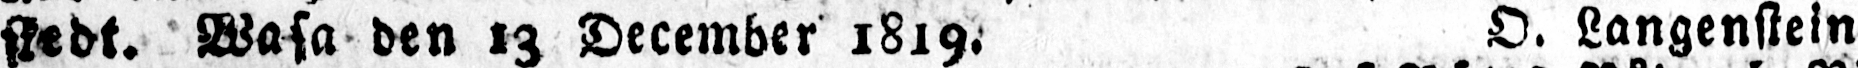skedt. Wasa den 13 December 1819. O. Langenstein
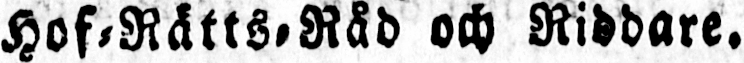Hof-Rätts-Råd och Riddare.
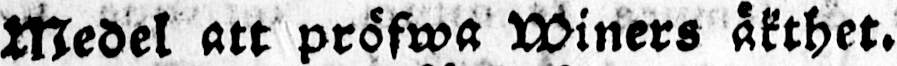Medel att pröfwa Winers äkthet.
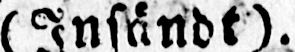(Insändt).
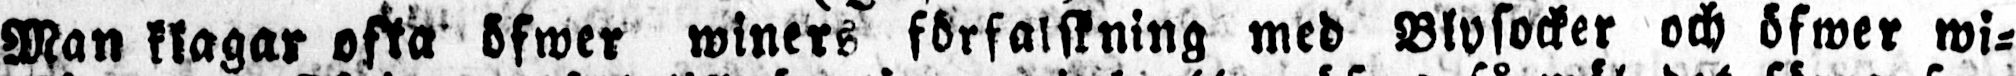Man klagar ofta öfwer winers förfalskning med Blysocker och öfwer wi-
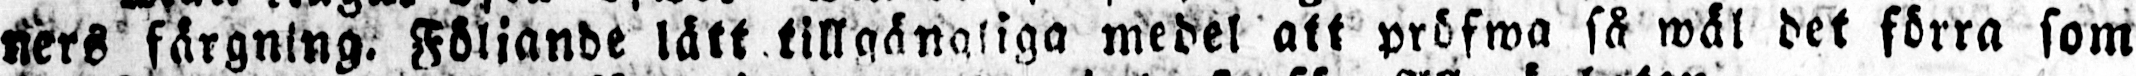ners färgning. Följande lätt tillgångliga medel att pröfwa så wäl det förra som
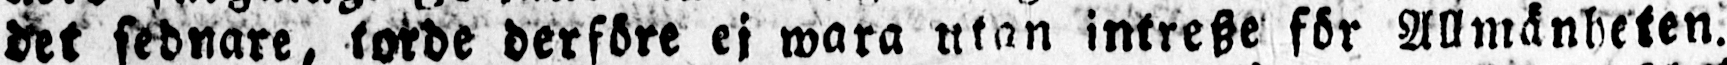det sednare, torde derföre ej wara utan intresze för Allmänheten.
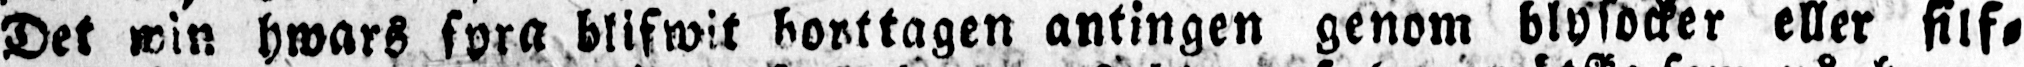Det win hwars syra blifwit borttagen antingen genom blysocker eller silf-
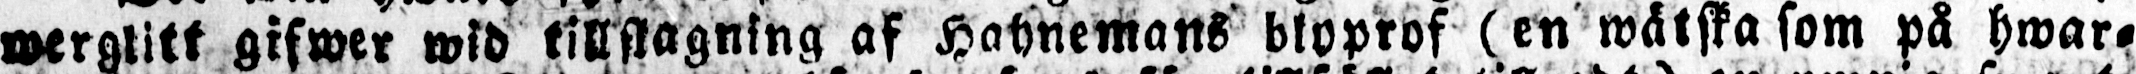werglitt gifwer wid tillslagning af Hahnemans blyprof (en wätska som på hwar-
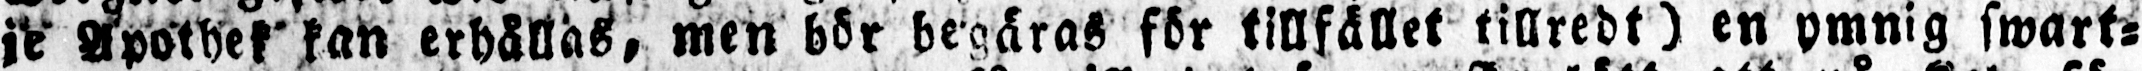je Apothek kan erhållas, men bör begäras för tillfället tillredt) en ymnig swart-
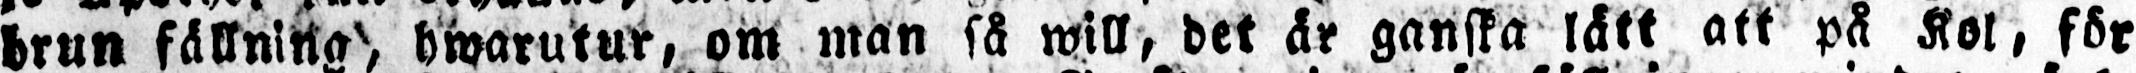brun fällning, hwarutur, om man så will, det är ganska lätt att på Kol, för
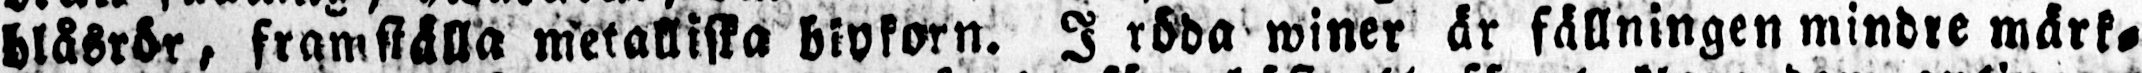blåsrör, framställa metalliska blykorn. I röda winer är fällningen mindre märk-
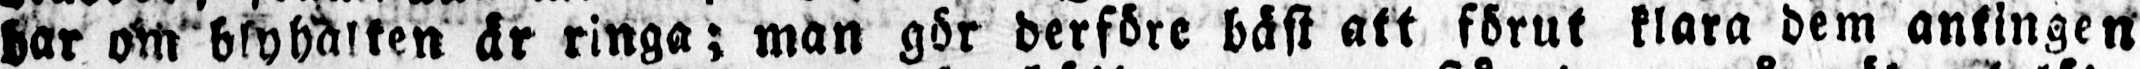bar om blyhalten är ringa; man gör derföre bäst att förut klara dem antingen
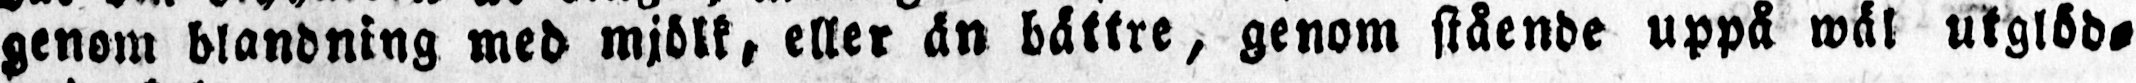genom blandning med mjölk, eller än bättre, genom stående uppå wäl utglöd-
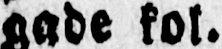gade kol.
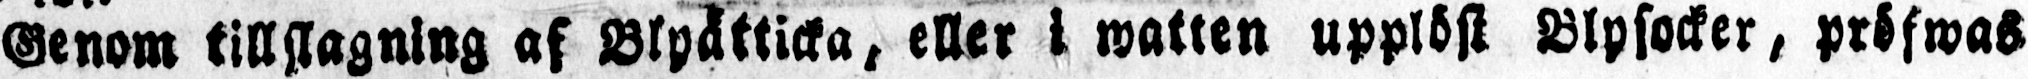Genom tillslagning af Blyätticka, eller i watten upplöst Blysocker, pröfwas
